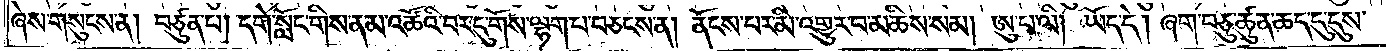ཞེས་གསུངས་ན། བཙུན་པ། དགེ་སློང་གིས་ནམ་འཚོའི་བར་དུ་གོས་ལྷག་པ་བཅངས་ན། ནོངས་པར་མི་འགྱུར་བ་མཆིས་སམ། ཨུ་པ་ལི། ཡོད་དེ། ཞག་བཅུ་ཚུན་ཆད་དུ་དུས་
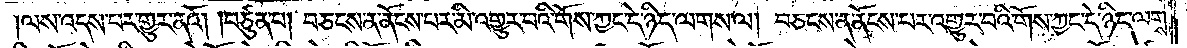།ལས་འདས་པར་གྱུར་ནའོ། །བཙུན་པ། བཅངས་ན་ནོངས་པར་མི་འགྱུར་བའི་གོས་ཀྱང་དེ་ཉིད་ལགས་ལ། བཅངས་ན་ནོངས་པར་འགྱུར་བའི་གོས་ཀྱང་དེ་ཉིད་ལགས་
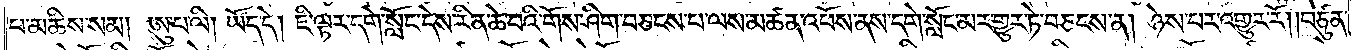པ་མཆིས་སམ། ཨུ་པ་ལི། ཡོད་དེ། ཇི་ལྟར་དགེ་སློང་དེས་རིན་ཆེ་བའི་གོས་ཤིག་བཅངས་པ་ལས་མཚན་འཕོས་ནས་དགེ་སློང་མར་གྱུར་ཏེ་བཅངས་ན། ཉེས་པར་འགྱུར་རོ། །བཙུན་
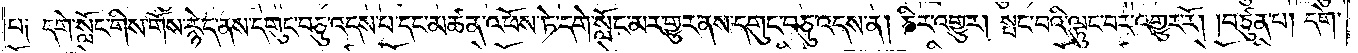པ༑ དགེ་སློང་གིས་གོས་རྙེད་ནས་དགུང་བཅུ་འདས་པ་དང་མཚན་འཕོས་ཏེ་དགེ་སློང་མར་གྱུར་ནས་དགུང་བཅུ་འདས་ན། ཅིར་འགྱུར། སྤང་བའི་ལྟུང་བར་འགྱུར་རོ། །བཙུན་པ། དགེ་
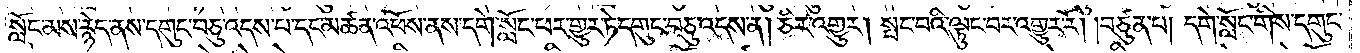སློང་མས་རྙེད་ནས་དགུང་བཅུ་འདས་པ་དང་མཚན་འཕོས་ནས་དགེ་སློང་ཕར་གྱུར་ཏེ་དགུང་བཅུ་འདས་ན། ཅིར་འགྱུར། སྤང་བའི་ལྟུང་བར་འགྱུར་རོ། །བཙུན་པ། དགེ་སློང་གིས་དགུང་
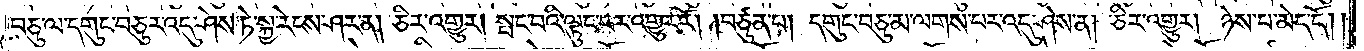བཅུ་ལ་དགུང་བཅུར་འདུ་ཤེས་ཏེ་སྐྱ་རེངས་ཤར་ན། ཅིར་འགྱུར། སྤང་བའི་ལྟུང་བར་འགྱུར་རོ། །བཙུན་པ། དགུང་བཅུ་མ་ལགས་པར་འདུ་ཤེས་ན། ཅིར་འགྱུར། ཉེས་པ་མེད་དོ། །
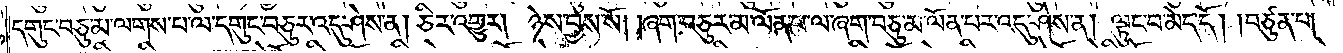དགུང་བཅུ་མ་ལགས་པ་ལ་དགུང་བཅུར་འདུ་ཤེས་ན། ཅིར་འགྱུར། ཉེས་བྱས་སོ། །ཞག་བཅུར་མ་ལོན་པ་ལ་ཞག་བཅུ་མ་ལོན་པར་འདུ་ཤེས་ན། ལྟུང་བ་མེད་དོ། །བཙུན་པ།
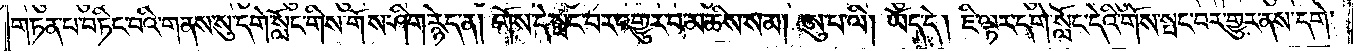གཏན་པ་བཏིང་བའི་གནས་སུ་དགེ་སློང་གིས་གོས་ཤིག་རྙེད་ན། གོས་དེ་སྤང་བར་འགྱུར་བ་མཆིས་སམ། ཨུ་པ་ལི། ཡོད་དེ། ཇི་ལྟར་དགེ་སློང་དེའི་གོས་སྤང་བར་གྱུར་ནས་དགེ་
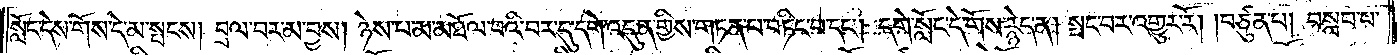སློང་དེས་གོས་དེ་མ་སྤངས། བྲལ་བར་མ་བྱས། ཉེས་པ་མ་མཐོལ་བའི་བར་དུ་དགེ་འདུན་གྱིས་གཏན་པ་བཏིང་བ་དང༌། དགེ་སློང་དེ་གོས་རྙེད་ན། སྤང་བར་འགྱུར་རོ། །བཙུན་པ། བསླབ་པ་
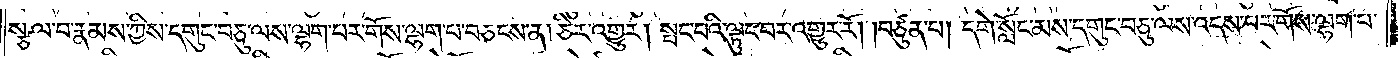སྩལ་བ་རྣམས་ཀྱིས་དགུང་བཅུ་ལས་ལྷག་པར་གོས་ལྷག་པ་བཅངས་ན། ཅིར་འགྱུར། སྤང་པའི་ལྟུང་བར་འགྱུར་རོ། །བཙུན་པ། དགེ་སློང་མས་དགུང་བཅུ་ལས་འདས་པར་གོས་ལྷག་པ་
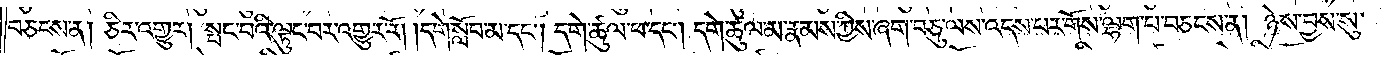བཅངས་ན། ཅིར་འགྱུར། སྤང་བའི་ལྟུང་བར་འགྱུར་རོ། །དགེ་སློབ་མ་དང༌། དགེ་ཚུལ་ཕ་དང༌། དགེ་ཚུལ་མ་རྣམས་ཀྱིས་ཞག་བཅུ་ལས་འདས་པར་གོས་ལྷག་པ་བཅངས་ན། ཉེས་བྱས་སུ་
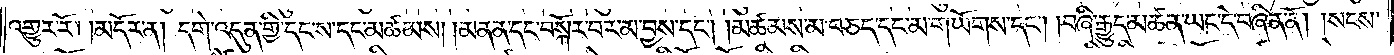འགྱུར་རོ།    །མདོར་ན། དགེ་འདུན་གྱི་དང་ས་དང་མཚམས། །མནན་དང་བསྐོར་བར་མ་བྱས་དང༌། །མཚམས་མ་བཅད་དང་མ་གཡོགས་དང༌། །བཞི་རྒྱུད་མཚན་ཡང་དེ་བཞིན་ནོ། །སངས་
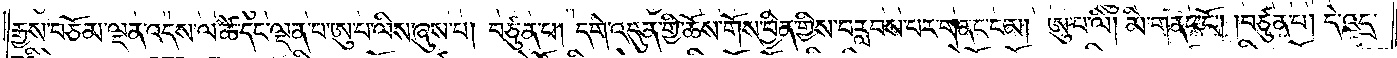རྒྱས་བཅོམ་ལྡན་འདས་ལ་ཚེ་དང་ལྡན་པ་ཨུ་པ་ལིས་ཞུས་པ། བཙུན་པ། དགེ་འདུན་གྱི་ཆོས་གོས་བྱིན་གྱིས་བརླབས་པར་གནང་ངམ། ཨུ་པ་ལི། མི་གནང་ངོ༌། །བཙུན་པ། དེ་འདྲ་
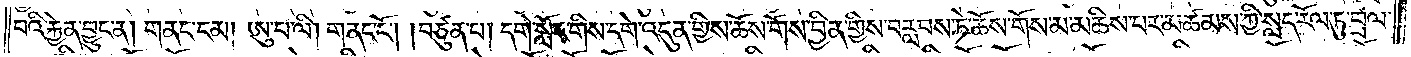བའི་རྐྱེན་བྱུང་ན། གནང་ངམ། ཨུ་པ་ལི། གནང་ངོ༌། །བཙུན་པ། དགེ་སློང་གིས་དགེ་འདུན་གྱིས་ཆོས་གོས་བྱིན་གྱིས་བརླབས་ཏེ་ཆོས་གོས་མ་མཆིས་པར་མཚམས་ཀྱི་སླད་རོལ་ཏུ་བྲལ་
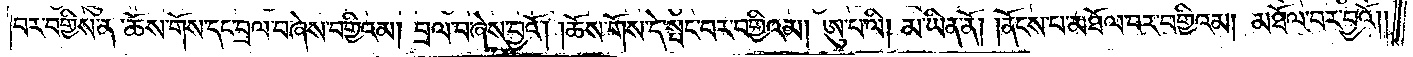བར་བགྱིས་ན་ཆོས་གོས་དང་བྲལ་བཞེས་བགྱིའམ། བྲལ་བ་ཞེས་བྱའོ། །ཆོས་གོས་དེ་སྤང་བར་བགྱིའམ། ཨུ་པ་ལི། མ་ཡིན་ནོ། །ནོངས་པ་མཐོལ་བར་བགྱིའམ། མཐོལ་བར་བྱའོ། །
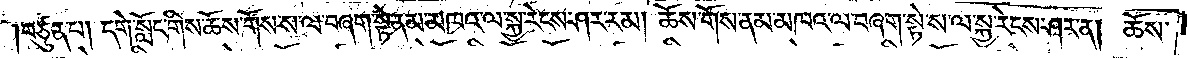བཙུན་པ། དགེ་སློང་གིས་ཆོས་གོས་ས་ལ་བཞག་སྟེ་ནམ་མཁའ་ལ་སྐྱ་རེངས་ཤར་རམ། ཆོས་གོས་ནམ་མཁའ་ལ་བཞག་སྟེ་ས་ལ་སྐྱ་རེངས་ཤར་ན། ཆོས་
